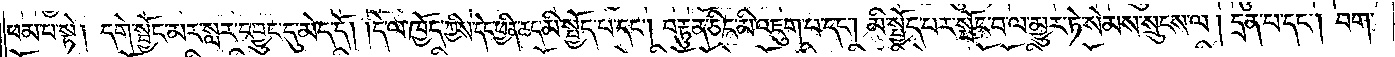ཕམ་པ་སྟེ། དགེ་སྦྱོང་མར་སླར་དབྱུང་དུ་མེད་དོ། །དེ་ལ་ཁྱོད་ཀྱིས་དེང་ཕྱིན་ཆད་མི་སྤྱོད་པ་དང༌། བརྟུན་ཅིང་མི་འཇུག་པ་དང༌། མི་སྤྱོད་པར་སྤོང་བ་ལ་མྱུར་ཏེ་སེམས་སྲུངས་ལ། དྲན་པ་དང༌། བག་
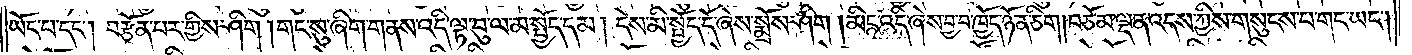ཡོད་པ་དང༌། བརྩོན་པར་གྱིས་ཤིག །གང་སུ་ཞིག་གནས་འདི་ལྟ་བུ་ལ་མ་སྤྱོད་དམ། དེས་མི་སྤྱོད་དོ་ཞེས་སྨྲོས་ཤིག །མིང་འདི་ཞེས་བྱ་བ་ཁྱོད་ཉོན་ཅིག །བཅོམ་ལྡན་འདས་ཀྱིས་གསུངས་པ་གང་ཡང༌།
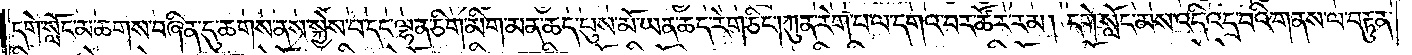དགེ་སློང་མ་ཆགས་བཞིན་དུ་ཆགས་ནས་སྐྱེས་པ་དང་ལྷན་ཅིག་མིག་མན་ཆད་པུས་མོ་ཡན་ཆད་རེག་ཅིང༌། ཀུན་རེག་པ་ལ་དགའ་བར་ཚོར་རམ། དགེ་སློང་མས་འདི་འདྲ་བའི་གནས་ལ་བརྟུན་
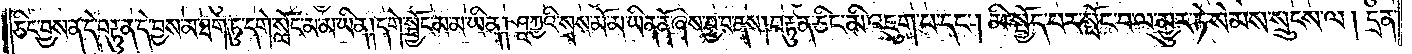ཅིང་བྱས་ན་དེ་བརྟུན་དེ་བྱས་མ་ཐག་ཏུ་དགེ་སློང་མ་མ་ཡིན། དགེ་སྦྱོང་མ་མ་ཡིན། ཤཱཀྱའི་སྲས་མོ་མ་ཡིན་ནོ་ཞེས་བྱ་བ་ནས། བརྟུན་ཅིང་མི་འཇུག་པ་དང༌། མི་སྤྱོད་པར་སྤོང་བ་ལ་མྱུར་ཏེ་སེམས་སྲུངས་ལ། དྲན་
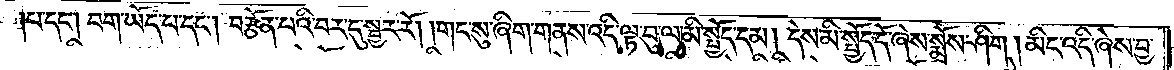པ་དང༌། བག་ཡོད་པ་དང༌། བརྩོན་པའི་བར་དུ་སྦྱར་རོ། །གང་སུ་ཞིག་གནས་འདི་ལྟ་བུ་ལ་མི་སྤྱོད་དམ། དེས་མི་སྤྱོད་དོ་ཞེས་སྨྲོས་ཤིག །མིང་འདི་ཞེས་བྱ་
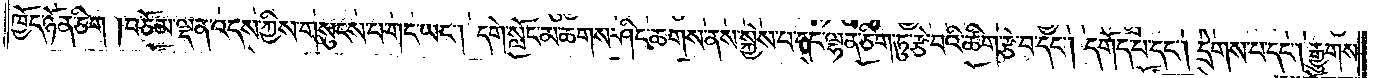ཁྱོད་ཉོན་ཅིག །བཅོམ་ལྡན་འདས་ཀྱིས་གསུངས་པ་གང་ཡང༌། དགེ་སློང་མ་ཆགས་ཤིང་ཆགས་ནས་སྐྱེས་པ་དང་ལྷན་ཅིག་ཏུ་རྩེ་བའི་ཚིག་རྩེ་བ་དང༌། དགོད་པ་དང༌། དྲེགས་པ་དང༌། རྒྱུགས་
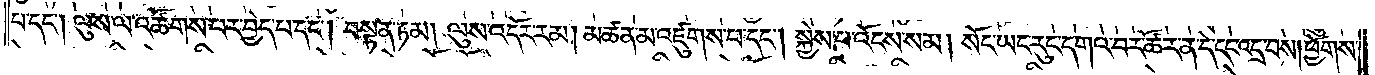པ་དང༌། ལུས་ལ་འཚོགས་པར་བྱེད་པ་དང༌། བསྟན་ཏམ། ལུས་འདོར་རམ། མཚན་མ་འཛུགས་པ་དང༌། སྐྱེས་པ་འོངས་སམ། སོང་ཡང་རུང་དགའ་བར་ཚོར་ན་དེ་དང་འདྲ་བས། ཕྱོགས་
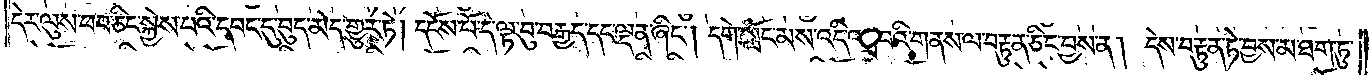དེར་ལུས་ཕབ་ཅིང་སྐྱེས་པའི་དབང་དུ་བུད་མེད་གྱུར་ཏེ། དངོས་པོ་དེ་ལྟ་བུ་བརྒྱད་དང་ལྡན་ཞིང༌། དགེ་སློང་མས་འདི་འདྲ་བའི་གནས་ལ་བརྟུན་ཅིང་བྱས་ན། དེས་བརྟུན་ཏེ་བྱས་མ་ཐག་ཏུ་
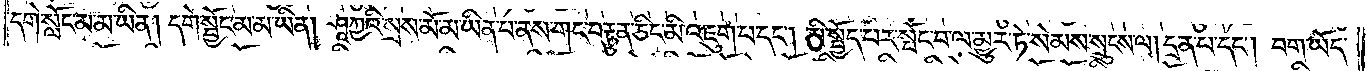དགེ་སློང་མ་མ་ཡིན། དགེ་སྦྱོང་མ་མ་ཡིན། ཤཱཀྱའི་སྲས་མོ་མ་ཡིན་པ་ནས་གང་བརྟུན་ཅིང་མི་འཇུག་པ་དང༌། མི་སྤྱོད་པར་སྤོང་བ་ལ་མྱུར་ཏེ་སེམས་སྲུངས་ལ། དྲན་པ་དང༌། བག་ཡོད་
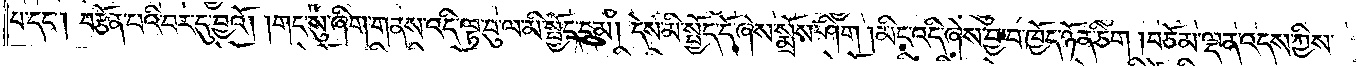པ་དང༌། བརྩོན་པའི་བར་དུ་བྱའོ། །གང་སུ་ཞིག་གནས་འདི་ལྟ་བུ་ལ་མི་སྤྱོད་དམ། དེས་མི་སྤྱོད་དོ་ཞེས་སྨྲོས་ཤིག །མིང་འདི་ཞེས་བྱ་བ་ཁྱོད་ཉོན་ཅིག །བཅོམ་ལྡན་འདས་ཀྱིས་
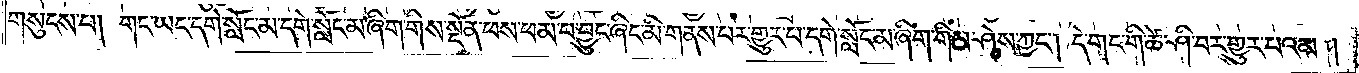གསུངས་པ། གང་ཡང་དགེ་སློང་མ་དགེ་སློང་མ་ཞིག་གིས་སྔོན་ཕས་ཕམ་པ་བྱུང་ཞིང་མི་གནས་པར་གྱུར་པ་དགེ་སློང་མ་ཞིག་གིས་ཤེས་ཀྱང༌། དེ་གང་གི་ཚེ་ཤི་བར་གྱུར་པའམ།
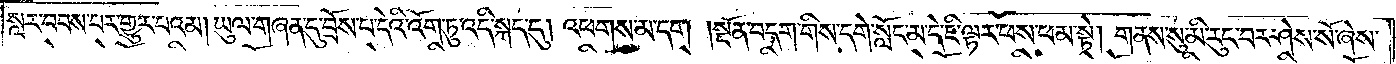སླར་བབས་པར་གྱུར་པའམ། ཡུལ་གཞན་དུ་བྲོས་པ་དེའི་འོག་ཏུ་འདི་སྐད་དུ། འཕགས་མ་དག །སྔོན་བདག་གིས་དགེ་སློང་མ་དེ་ཇི་ལྟར་ཕས་ཕམ་སྟེ། གནས་སུ་མི་རུང་བར་ཤེས་སོ་ཞེས་
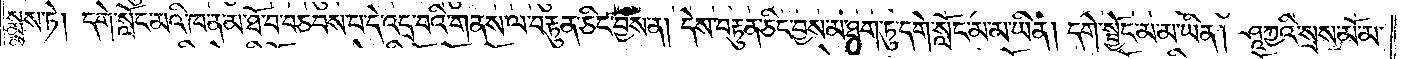སྨྲས་ཏེ། དགེ་སློང་མའི་ཁ་ན་མ་ཐོ་བ་བཅབས་པ་དེ་འདྲ་བའི་གནས་ལ་བརྟུན་ཅིང་བྱས་ན། དེས་བརྟུན་ཅིང་བྱས་མ་ཐག་ཏུ་དགེ་སློང་མ་མ་ཡིན། དགེ་སྦྱོང་མ་མ་ཡིན། ཤཱཀྱའི་སྲས་མོ་མ་
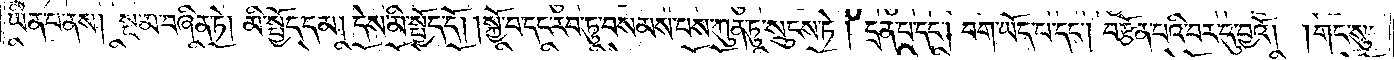ཡིན་པ་ནས། སྔ་མ་བཞིན་ཏེ། མི་སྤྱོད་དམ། དེས་མི་སྤྱོད་དོ། །སྐྱོ་བ་དང་རབ་ཏུ་བསམས་པས་ཀུན་ཏུ་སྲུངས་ཏེ། དྲན་པ་དང༌། བག་ཡོད་པ་དང༌། བརྩོན་པའི་བར་དུ་བྱའོ། །གང་སུ་
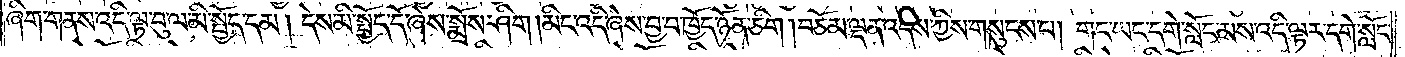ཞིག་གནས་འདི་ལྟ་བུ་ལ་མི་སྤྱོད་དམ། དེས་མི་སྤྱོད་དོ་ཞེས་སྨྲོས་ཤིག །མིང་འདི་ཞེས་བྱ་བ་ཁྱོད་ཉོན་ཅིག །བཅོམ་ལྡན་འདས་ཀྱིས་གསུངས་པ། གང་ཡང་དགེ་སློང་མས་འདི་ལྟར་དགེ་སློང་
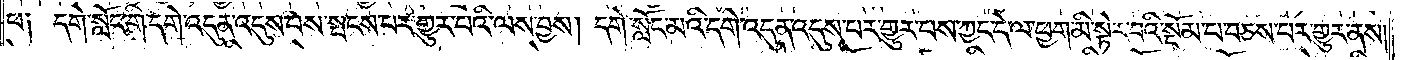ཕ། དགེ་སློང་གི་དགེ་འདུན་འདུས་པས་སྤངས་པར་གྱུར་པའི་ལས་བྱས། དགེ་སློང་མའི་དགེ་འདུན་འདུས་པར་གྱུར་པས་ཀྱང་དེ་ལ་ཕྱག་མི་སྟེར་བའི་སྡོམ་པ་བཅས་པར་གྱུར་ནས།
